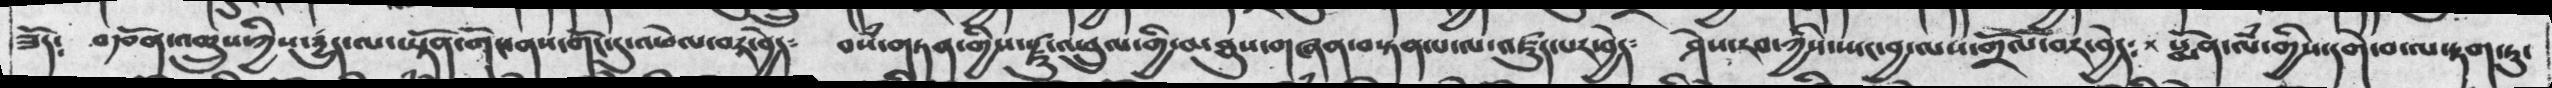ཟོད༴  བརྩོན་འགྲུས་ཀྱིས་དྱུད་ལ་ཡྟོན་གོང་ནས་གོང་དུ་འཕེལ་བར་བྱེད༴   བསཾ་གཏན་གྱིས་རྗུ་འཕྲུལ་གྱི་མཐུས་གཞན་བསྟན་པ་ལ་འཛུད་པར་བྱེད༴   ཤེས་རབ་ཀྱིས་སྤང་བྱ་ལས་གྲོལ་བར་བྱེད༴  སྨོན་ལཾ་གྱིས་དགེ་བ་ལ་རྟག་ཏུ་
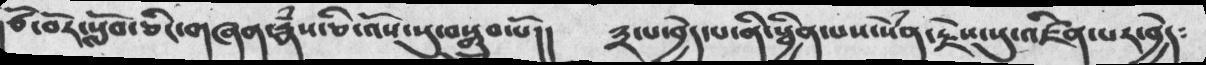ཙོ་བོར་སློབ་ཅིང་གཞན་རྣཾས་ཅི་འོས་སུ་བསྒྲུབ་པོ།།     ༣་པ་བྱེད་པ་ནི་སྦྱིན་པས་སེཾན་རྗེས་སུ་འཛིན་པར་བྱེད༴
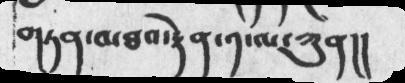གཏན་མཐའ་རྟེན་༡་ལ་ཀུན།།
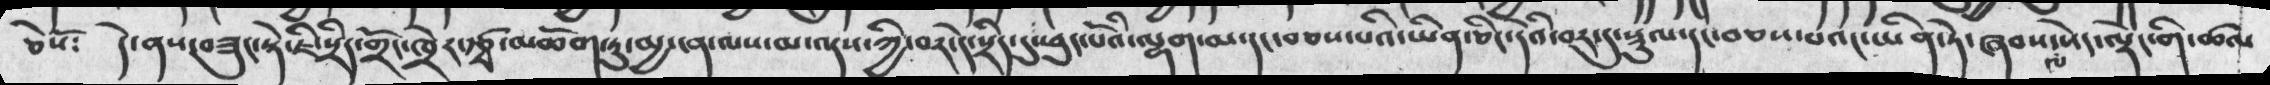ཅེསོ༴  དེ་ནས་བཟུང་སྟེ་ཇི་སྲིད་གྲོང་ཁྱེར་རྩྭ་མཆོག་ཏུ་མྱ་ངན་ལས་མ་འདས་ཀྱི་བར་དེ་སྲིད་དུ་ཕུང་པོའི་ལྷག་མ་དང་བཅས་པའི་ཡིན་ཅིང་དེའི་བར་དུ་སྡུལ་དང་བཅས་པའང་ཡིན་ཏེ་ཞབས་ལ་སེང་ལྡེང་གི་ཚལ
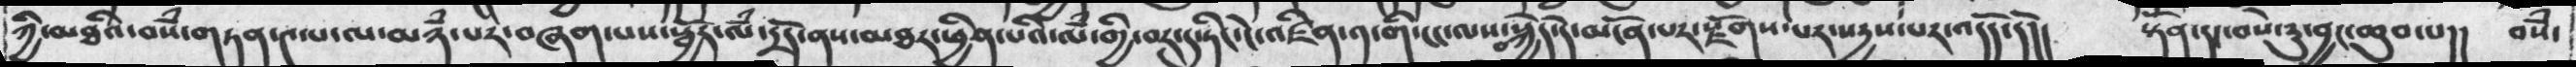ཀྱི་མཐའི་བསཾ་གཏན་༤་པ་ལ་མཉཾ་པར་བཞག་པས་སྦྱོར་ལཾ་དྲོད་ནས་མཐར་ཕྱིན་པའི་ལཾ་གྱི་བར་དུ་ཏིང་ངེ་འཛིན༡་གི་ངང་ལས་བསྐྱེད་དེ་མངོན་པར་རྫོགས་པར་སདྱས་པར་འདོད་དོ།།  སྟོན་དང་བསེ་རུ་བྱང་ཆུབ་པ།།  བསཾ་
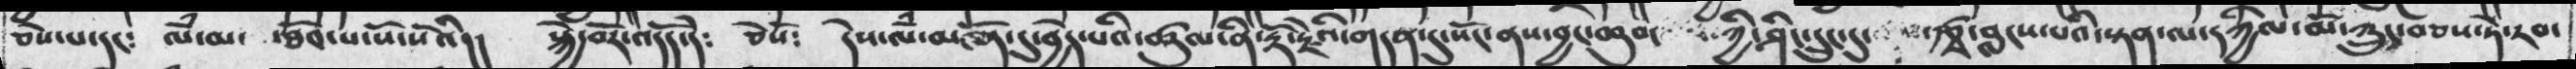ཅེས་པ་དང༴  ལཾ་མ་  ་ཐོབ་པ་སོ་སོའི།།  སྐྱེ་བོར་འདོད་དེ༴  ཅེསོ༴  དེས་ལཾ་མངོན་དུ་བྱེད་པའི་ཚུལ་ན་རྡོ་རྗེའི་གདན་དུ་སོང་ནས་བྱང་ཆུབ་  ཀྱི་ཤིང་དྲུང་དུ་  རྩྭ་བླངས་པའ་སྟན་ལ་དཀྱིལ་པོ་ཀྲུང་བཅས་ཏེ་རབ་
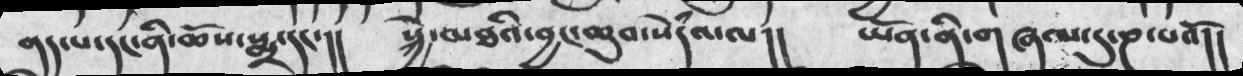ནད་པ་དང་ནི་ཆོས་སྨྲ་དང་།།  སྐྱེ་མཐའི་བྱང་ཆུབ་སེཾདའ་ལ།།  ཡོན་ནི་གཞལ་དུ་ཎ་པའོ།།
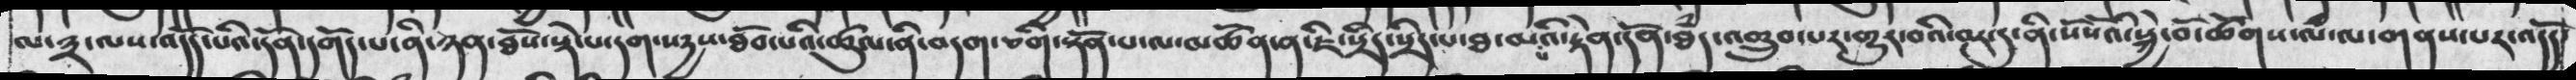མ་༣་ལས་འདོད་པའི་དོན་དགོད་པ་ནི་ཉན་ཐོས་སྡེ་པ་དག་སདྱས་ཐོབ་པའི་ཚུལ་ནི་བདག་ཅགི་སྟོན་པ་ལ་མཚོན་ན་ཇི་སྲིད་སྲིད་པ་ཐ་མཔའི་རྟེན་དོན་ཐཾད་འགྲུབ་པར་གྱུར་བའི་བར་དུ་ནི་སོསོའི་སྐྱེ་བོ་ཚོགས་ལཾ་ལ་གནས་པར་འདོད་
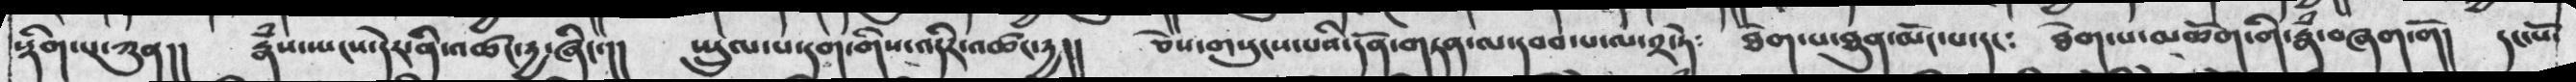སྡིག་པ་ཀུན།།    རྣཾས་སྤངས་དེར་ནི་འཚང་དྱ་ཞིང་།།   སྤྲུལ་པ་དག་གིས་འདིར་འཚང་དྱ།། ཅེས་གསུངས་པའི་དོན་གཏན་ལ་དབབ་པ་ལ་༢་ཏེ༴  ཐེག་པ་ཐུན་མོང་པ་དང༴   ཐེག་པ་མཆོག་གི་རྣཾ་བཞག་གོ། དང་པོ་
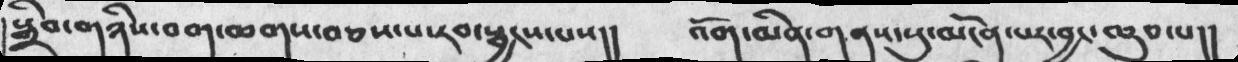སྒྲིབ་གཉིས་བག་ཆགས་བཅས་པ་རབ་སྦྱངས་པས།།    འོག་མིག་གནས་སུ་མངོན་པར་བྱང་ཆུབ་པ།།
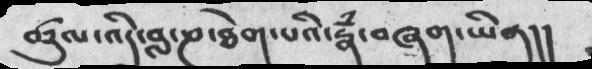ཚུལ་འདི་བླ་ཎ་ཐེག་པའི་རྣཾ་བཞག་ཡིན།།
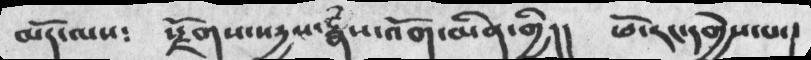མདོ་ལས༴    སྫོགས་སདྱས་རྣཾས་འོག་མིན་གྱི།།  ཕོ་རང་དགྱེས་པ་
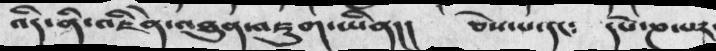འདི་ནི་འཇིེན་འཐུན་འཇུག་ཡིན།།  ཅེས་པ་དང༴  དཔེ་ཎ་པར
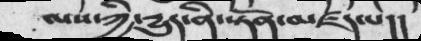ལས་ཀྱི་དྱུད་ནི་སྟོན་མཛད་པ།།
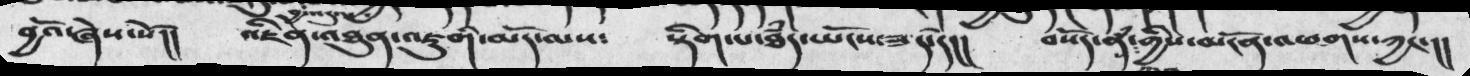བྱའོ་ཞེས་སོ།།  འཇིེན་འཐུན་འཇུགི་མདོ་ལས༴ སྡིག་པ་ཐྃད་སྤོངས་ཟད་དེ།།  བསོད་ནཾས་གྱིས་མངོན་འཕགས་ཀྱང་།།
